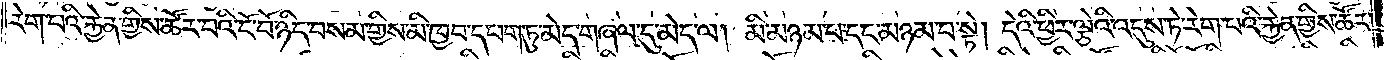རེག་པའི་རྐྱེན་གྱིས་ཚོར་བའི་ངོ་བོ་ཉིད་བསམ་གྱིས་མི་ཁྱབ་དཔག་ཏུ་མེད་གཞལ་དུ་མེད་ལ། མི་མཉམ་པ་དང་མཉམ་པ་སྟེ། དེའི་ཕྱིར་ལྕེའི་འདུས་ཏེ་རེག་པའི་རྐྱེན་གྱིས་ཚོར་
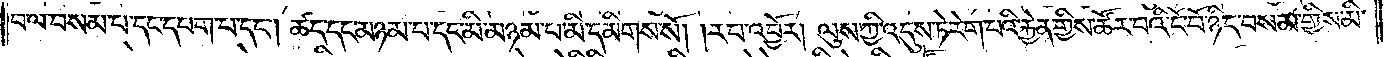བ་ལ་བསམ་པ་དང་དཔག་པ་དང༌། ཚད་དང་མཉམ་པ་དང་མི་མཉམ་པ་མི་དམིགས་སོ། །རབ་འབྱོར། ལུས་ཀྱི་འདུས་ཏེ་རེག་པའི་རྐྱེན་གྱིས་ཚོར་བའི་ངོ་བོ་ཉིད་བསམ་གྱིས་མི་
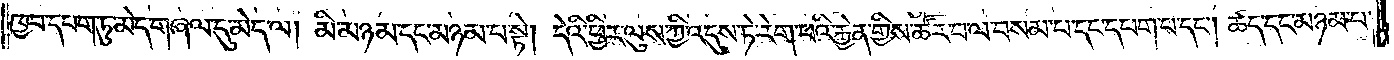ཁྱབ་དཔག་ཏུ་མེད་གཞལ་དུ་མེད་ལ། མི་མཉམ་དང་མཉམ་པ་སྟེ། དེའི་ཕྱིར་ལུས་ཀྱི་འདུས་ཏེ་རེག་པའི་རྐྱེན་གྱིས་ཚོར་བ་ལ་བསམ་པ་དང་དཔག་པ་དང༌། ཚད་དང་མཉམ་པ་
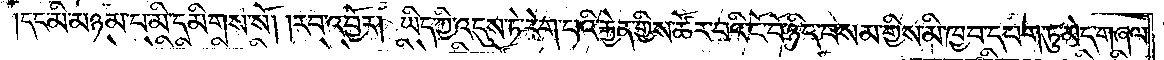དང་མི་མཉམ་པ་མི་དམིགས་སོ། །རབ་འབྱོར། ཡིད་ཀྱི་འདུས་ཏེ་རེག་པའི་རྐྱེན་གྱིས་ཚོར་བའི་ངོ་བོ་ཉིད་བསམ་གྱིས་མི་ཁྱབ་དཔག་ཏུ་མེད་གཞལ་
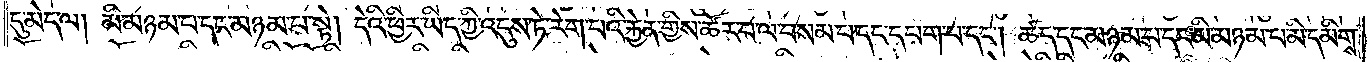དུ་མེད་ལ། མི་མཉམ་པ་དང་མཉམ་པ་སྟེ། དེའི་ཕྱིར་ཡིད་ཀྱི་འདུས་ཏེ་རེག་པའི་རྐྱེན་གྱིས་ཚོར་བ་ལ་བསམ་པ་དང་དཔག་པ་དང༌། ཚད་དང་མཉམ་པ་དང་མི་མཉམ་པ་མི་དམིགས་
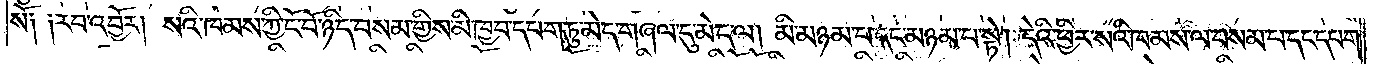སོ༑ ༑རབ་འབྱོར། སའི་ཁམས་ཀྱི་ངོ་བོ་ཉིད་བསམ་གྱིས་མི་ཁྱབ་དཔག་ཏུ་མེད་གཞལ་དུ་མེད་ལ། མི་མཉམ་པ་དང་མཉམ་པ་སྟེ། དེའི་ཕྱིར་སའི་ཁམས་ལ་བསམ་པ་དང་དཔག་
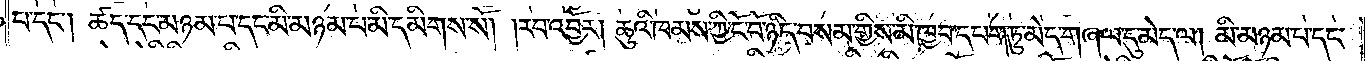པ་དང༌། ཚད་དང་མཉམ་པ་དང་མི་མཉམ་པ་མི་དམིགས་སོ། །རབ་འབྱོར། ཆུའི་ཁམས་ཀྱི་ངོ་བོ་ཉིད་བསམ་གྱིས་མི་ཁྱབ་དཔག་ཏུ་མེད་གཞལ་དུ་མེད་ལ། མི་མཉམ་པ་དང་
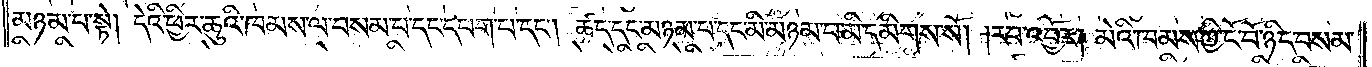མཉམ་པ་སྟེ། དེའི་ཕྱིར་ཆུའི་ཁམས་ལ་བསམ་པ་དང་དཔག་པ་དང༌། ཚད་དང་མཉམ་པ་དང་མི་མཉམ་པ་མི་དམིགས་སོ། །རབ་འབྱོར། མེའི་ཁམས་ཀྱི་ངོ་བོ་ཉིད་བསམ་
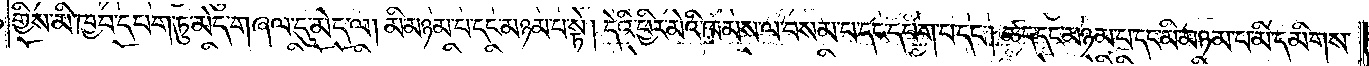གྱིས་མི་ཁྱབ་དཔག་ཏུ་མེད་གཞལ་དུ་མེད་ལ། མི་མཉམ་པ་དང་མཉམ་པ་སྟེ། དེའི་ཕྱིར་མེའི་ཁམས་ལ་བསམ་པ་དང་དཔག་པ་དང༌། ཚད་དང་མཉམ་པ་དང་མི་མཉམ་པ་མི་དམིགས་
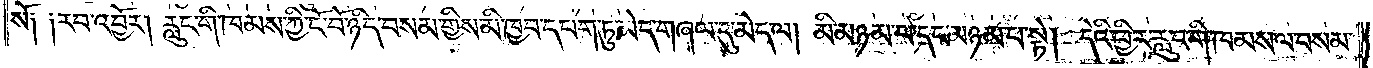སོ༑ ༑རབ་འབྱོར། རླུང་གི་ཁམས་ཀྱི་ངོ་བོ་ཉིད་བསམ་གྱིས་མི་ཁྱབ་དཔག་ཏུ་མེད་གཞལ་དུ་མེད་ལ། མི་མཉམ་པ་དང་མཉམ་པ་སྟེ། དེའི་ཕྱིར་རླུང་གི་ཁམས་ལ་བསམ་
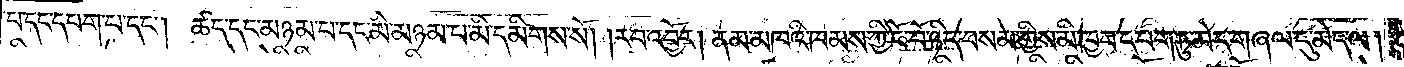པ་དང་དཔག་པ་དང༌། ཚད་དང་མཉམ་པ་དང་མི་མཉམ་པ་མི་དམིགས་སོ། །རབ་འབྱོར། ནམ་མཁའི་ཁམས་ཀྱི་ངོ་བོ་ཉིད་བསམ་གྱིས་མི་ཁྱབ་དཔག་ཏུ་མེད་གཞལ་དུ་མེད་ལ།
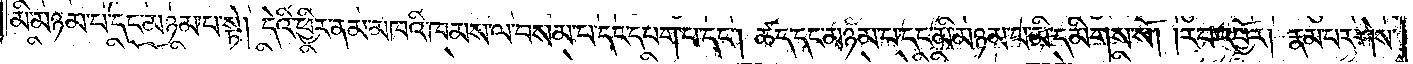མི་མཉམ་པ་དང་མཉམ་པ་སྟེ། དེའི་ཕྱིར་ནམ་མཁའི་ཁམས་ལ་བསམ་པ་དང་དཔག་པ་དང༌། ཚད་དང་མཉམ་པ་དང་མི་མཉམ་པ་མི་དམིགས་སོ། །རབ་འབྱོར། རྣམ་པར་ཤེས་
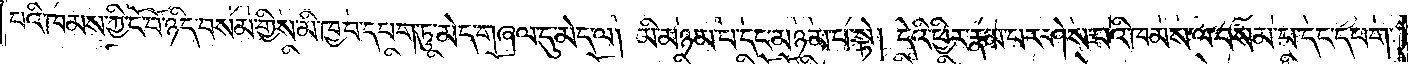པའི་ཁམས་ཀྱི་ངོ་བོ་ཉིད་བསམ་གྱིས་མི་ཁྱབ་དཔག་ཏུ་མེད་གཞལ་དུ་མེད་ལ། མི་མཉམ་པ་དང་མཉམ་པ་སྟེ། དེའི་ཕྱིར་རྣམ་པར་ཤེས་པའི་ཁམས་ལ་བསམ་པ་དང་དཔག་
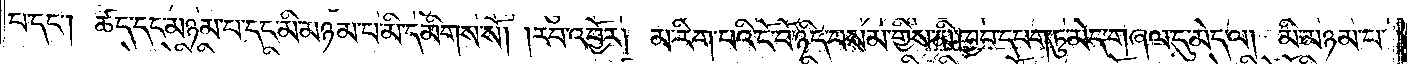པ་དང༌། ཚད་དང་མཉམ་པ་དང་མི་མཉམ་པ་མི་དམིགས་སོ། །རབ་འབྱོར། མ་རིག་པའི་ངོ་བོ་ཉིད་བསམ་གྱིས་མི་ཁྱབ་དཔག་ཏུ་མེད་གཞལ་དུ་མེད་ལ། མི་མཉམ་པ་
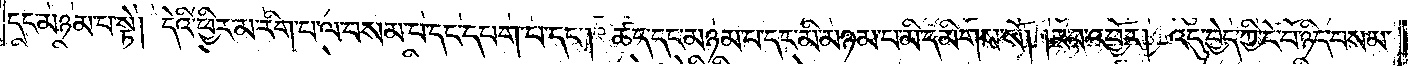དང་མཉམ་པ་སྟེ། དེའི་ཕྱིར་མ་རིག་པ་ལ་བསམ་པ་དང་དཔག་པ་དང༌། ཚད་དང་མཉམ་པ་དང་མི་མཉམ་པ་མི་དམིགས་སོ། །རབ་འབྱོར། འདུ་བྱེད་ཀྱི་ངོ་བོ་ཉིད་བསམ་
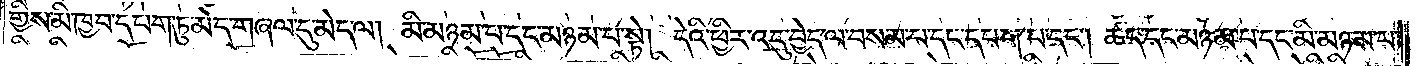གྱིས་མི་ཁྱབ་དཔག་ཏུ་མེད་གཞལ་དུ་མེད་ལ། མི་མཉམ་པ་དང་མཉམ་པ་སྟེ། དེའི་ཕྱིར་འདུ་བྱེད་ལ་བསམ་པ་དང་དཔག་པ་དང༌། ཚད་དང་མཉམ་པ་དང་མ་མཉམ་པ་
